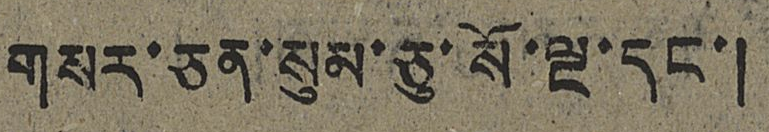གསར་ཅན་སུམ་ཅུ་སོ་ལྔ་དང་།
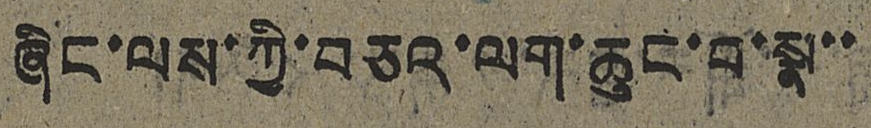ཞིང་ལས་ཀྱི་བཅའ་ལག་ཆུང་བ་སྣ་་
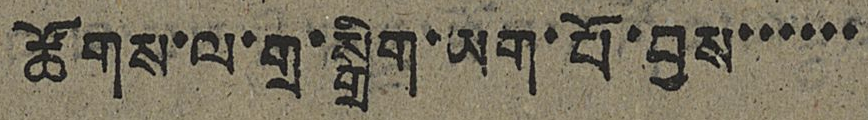ཚོགས་ལ་གྲ་སྒྲིག་ཡག་པོ་བྱས་་་་་་
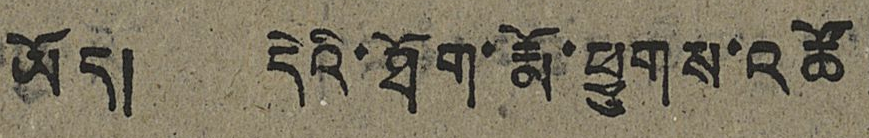ཡོད། དེའི་ཐོག་རྨོ་ཕྱུགས་འཚོ
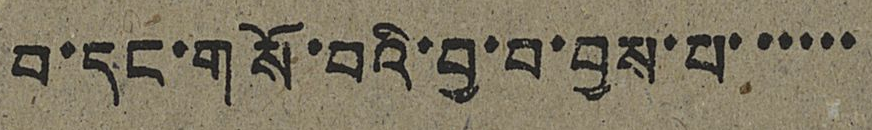བ་དང་གསོ་བའི་བྱ་བ་བྱས་པ་་་་་་
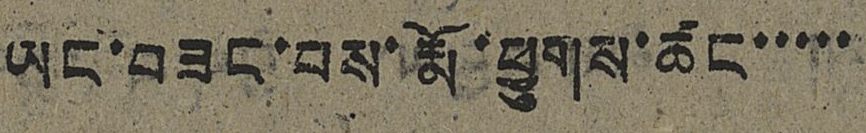ཡང་བཟང་བས་རྨོ་ཕྱུགས་ཚང་་་་་
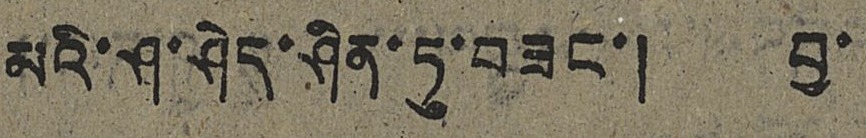མའི་ཤ་ཤེད་ཤིན་ཏུ་བཟང་། བྱ་
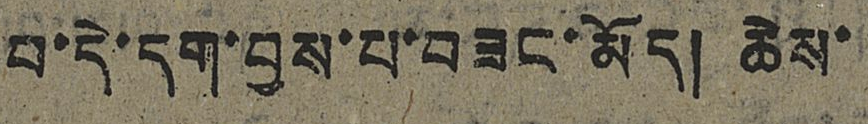བ་དེ་དག་བྱས་པ་བཟང་མོད། ཆེས་
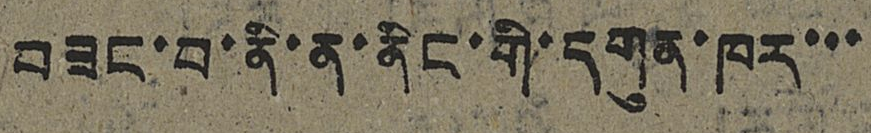བཟང་བ་ནི་ན་ནིང་གི་དགུན་ཁར་་་
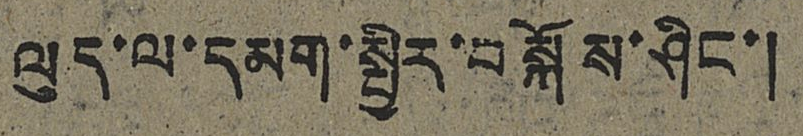ལུད་ལ་དམག་སྤྱིར་བསྐོས་ཤིང་།
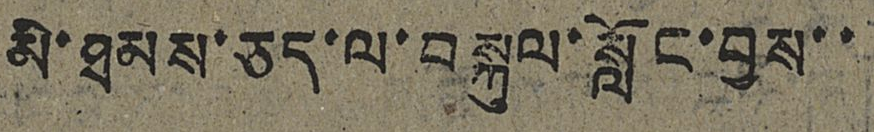མི་ཐམས་ཅད་ལ་བསྐུལ་སློང་བྱས་་
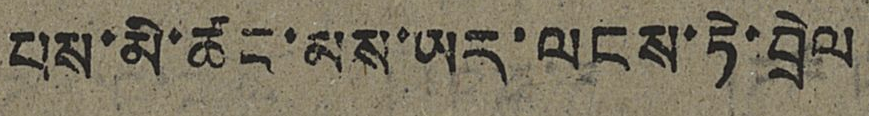པས་མི་ཚང་མས་ཡར་ལངས་ཏེ་བྲེལ
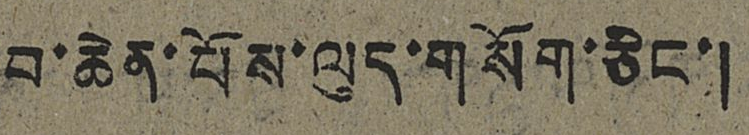བ་ཆེན་པོས་ལུད་གསོག་ཅིང་།
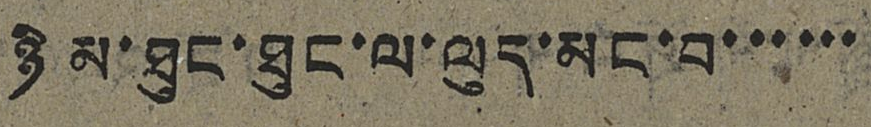ཉི མ་ཐུང་ཐུང་ལ་ལུད་མང་བ་་་་་་
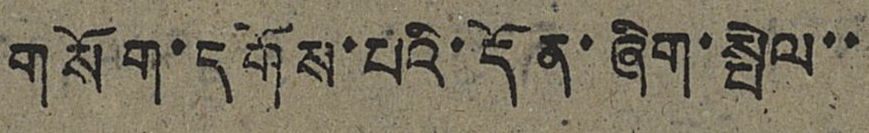གསོག་དགོས་པའི་དོན་ཞིག་སྤེལ་་
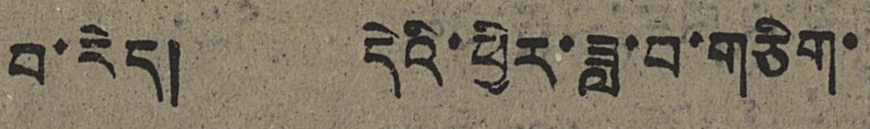བ་རེད། དེའི་ཕྱིར་ཟླ་བ་གཅིག་
